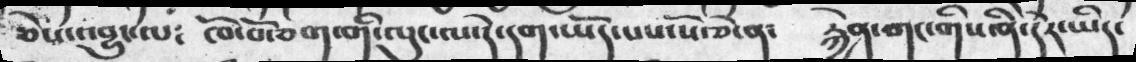ཅེས་འབྱུང་ལ༴  ཁོ་པོ་ཅག་གི་ལུང་ལ་དེ་དག་ཡོད་པས་སོ་ཅེ་ན༴   རྐྱེན་གང་གིས་ནི་དེར་ཡིད་
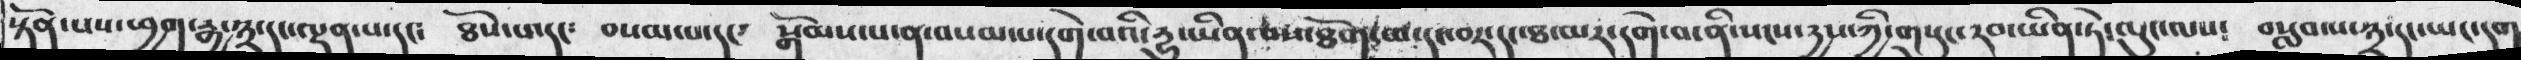སྟོན་པས་ཕྱག་རྒྱ་༣་དང་ལྡན་པ་དང༴   ཐོས་པ་དང༴   བསམ་པ་དང༴  སྒོམས་པ་ན་བསམ་པ་དགེ་བའི་རྱུ་ཡིན་བས་ཐོག་མ་དང་བར་དང་ཐ་མར་དགེ་བ་ནི་སངས་རྱས་ཀྱི་གསུང་རབ་ཡིན་ཏེ་ལུང་ལས༴  བརླབ་པ་༣་དང་ཡང་དག
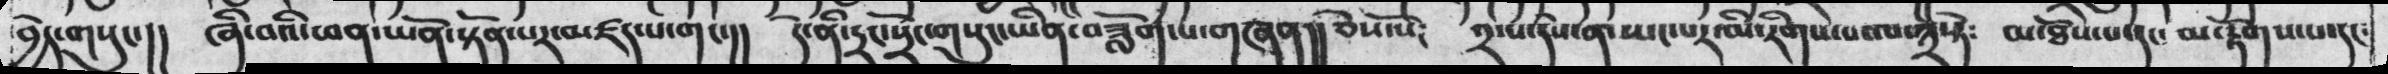བྱེད་གསུང་།།  ཞི་བའི་ཕན་ཡོན་སྟོན་པར་མཛད་པ་གང་།།  དེ་ནི་དྲང་སྲོང་གསུང་ཡིན་བཟློག་པ་གཞན།།  ཅེས་སོ།  ༢་པ་དེས་ན་ཡངས་པར་མི་རིགས་པ་ལ་༣་སྟེ༴  མ་ཐོས་པ་དང་་  མ་རྟོགས་པ་དང་
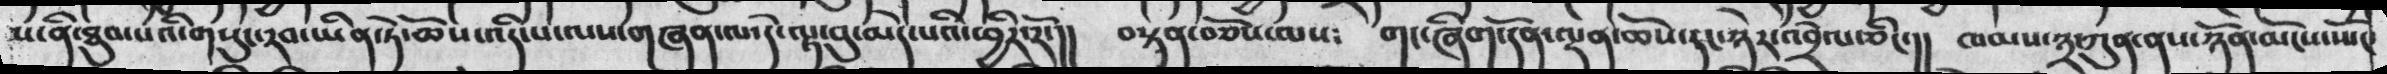པ་ནི་ཐུབ་པའི་གསུང་རབ་ཡིན་ཏེ་ཆོས་འདི་པ་ལས་གཞན་ལ་དེ་ལྟ་བུ་མེད་པའི་ཕྱིར་རོ་།།  བསྟན་བཅོས་ལས༴  གང་ཞིག་དོན་ལྡན་ཆོས་དང་ཉེར་འབྲེལ་ཅིང་།།   ཁམས་༣་ཀུན་ནས་ཉོན་མོངས་ཡོང་
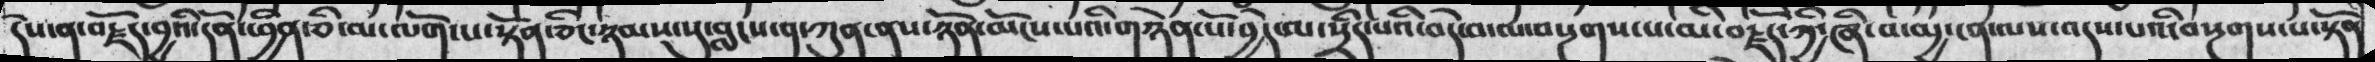དེས་ན་བརྗོདབྱའི་དོན་ཕྱིན་ཅི་མ་ལོག་པ་སྟོན་ཅིང་ཉམས་སུ་བླངས་ན་ཀུན་ནས་ཉོན་མོངས་པའི་གཉེན་པོ་བྱེད་ལ་སྲིད་པའི་བདེ་བ་ལ་སྔགས་པ་མི་བརྗོད་ཀྱི་ཞི་བ་མྱ་ངན་ལས་འདས་པའི་བསྔགས་པ་སྟོན
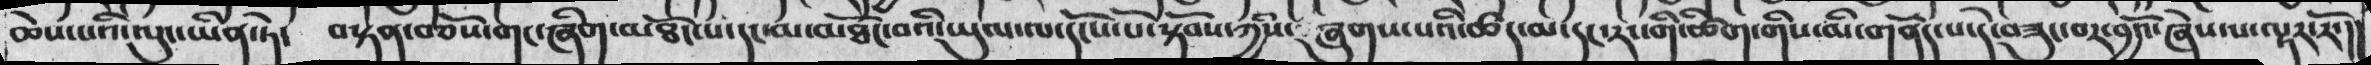ཆེས་པའི་ལུང་ཡིན་ཏེ་  བསྟན་བཅོས་གང་ཞིག་མཐོང་པ་དང་མ་མཐོང་བའི་ཡུལ་ལ་དངོས་པོ་སྟོབས་ཀྱིས་ཞུགས་པའི་ཚད་མ་དང་རང་གི་ཚིག་གིས་མི་གནོད་པ་དེ་བཟུང་བར་བྱའོ་ཞེས་པ་ལྟར་རོ་།།
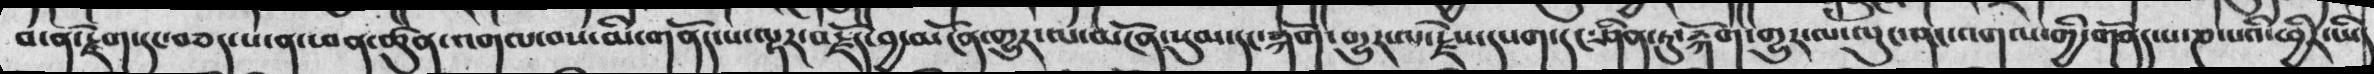བ་ན་རྫོག་དང་བཅད་པ་ན་ཕན་ཚུན་འགལ་བས་མི་གནོདཔ་ལྟར་བརྗོད་བྱ་མངོན་གྱུར་ལ་མངོན་སུམ་དང་ལྐོག་གྱུར་ལ་རྗེས་དཔག་དང་ཤིན་ཏུ་རྐོག་གྱུར་ལ་ལུང་ནང་འགལ་གྱི་གནོད་པ་ཎ་པའི་ཕྱིར་པའི་ཡི
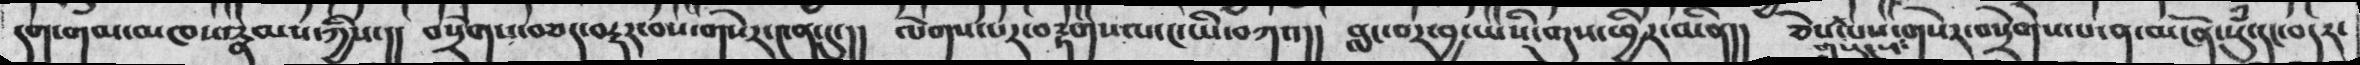དག་གམ་མཁས་རྣམས་ཀྱིས་།།  བསྲེགས་བཅད་བརྡར་བས་གསེར་༤ན་དུ་།།   ལེགས་པར་བརྟགས་ལ་ང་ཡི་བཀའ།།  བླང་བར་བྱ་ཡིས་གུས་ཕྱིར་མིན།།   ཅེས་པས་གསེར་བསྲེགས་པ་ན་མངོན་སུཾ་དང་བདར་
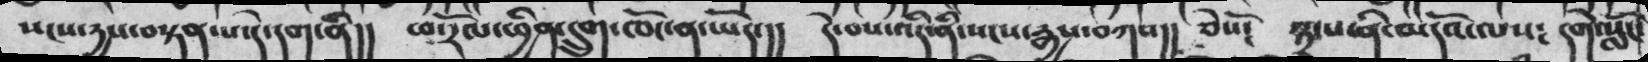སངས་རྱས་བསྟན་པ་དེ་དག་ནི།།  ཕ་རོལ་ཕྱིན་དྲུག་ཁོང་ན་ཡོད་།།  དེ་བས་འདི་ནི་སངས་རྒྱས་བཀས།།  ཅེསོ༴  ༣་པ་ནི་མངོའ་ལས༴  དགེ་སློང་
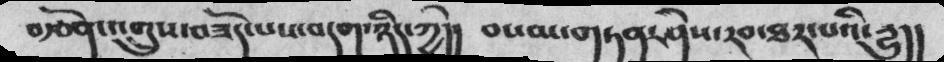བརྩོན་འགྲུས་བཟོད་པས་བདག་ཉིད་ཀྱི།།  བསམ་གཏན་ཤེས་རབ་ཐར་པའི་རྱུ།།
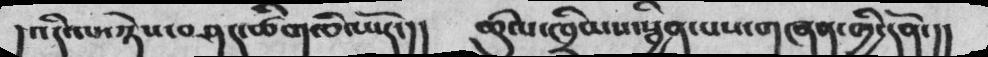། འདི་ལ་ཉེས་བཤད་ཚིག་ཅི་ཡོདང།།  ཚུལ་ཁྲིམས་སྦྱིན་པས་གཞན་གྱི་དོན་།།
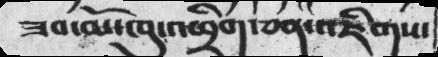ཟབ་མོ་ཁུ་འཕྲིག་ཅན་འཇིགས་
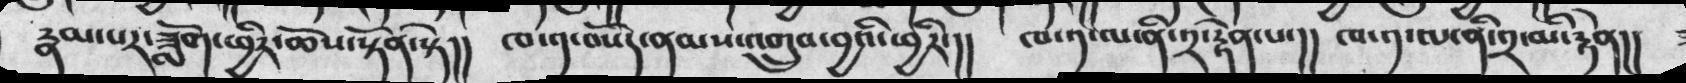རྣམ་པར་ཟློག་ཕྱིར་ཆོས་སྟོན་སྟེ།།  ཁ་༡་བསོད་ནམས་འགྲུབ་བྱའི་ཕྱིར་།།   ཁ་༡་ལ་ནི་༤་རྟེན་པ་།།  ཁ་༡་ལ་ནི་༢་མི་རྟེན།།
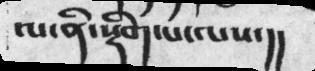ལ་ནི་སྡིག་པ་ལས་།།
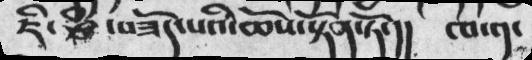ཇི་ཙཾ་བཟོད་པའི་ཆོས་སྟོན་ཏོ་།།   ཁ་༡་
